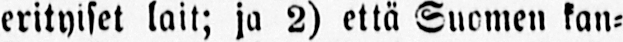erityiset lait; ja 2) että Suomen kan-
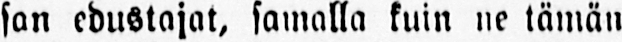san edustajat, samalla kuin ne tämän
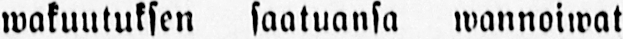wakuutuksen saatuansa wannoiwat
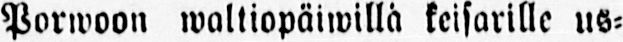Porwoon waltiopäiwillä keisarille us-
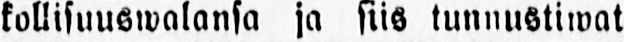kollisuuswalansa ja siis tunnustiwat
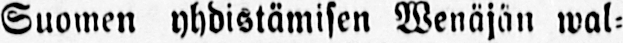Suomen yhdistämisen Wenäjän wal-
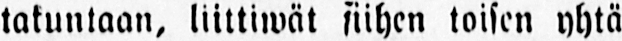tatuntaan, liittiwät siihen loisen yhtä
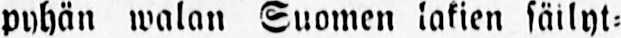pyhän walan Suomen lakien säilyt-
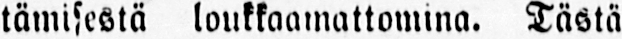tämisestä loukkaamattomina. Tästä
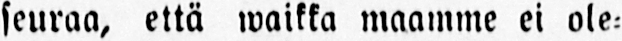seuraa, että waikka maamme ei ole-
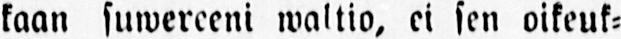kaan suwereeni waltio, ei sen oikeuk-
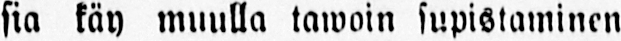sia käy muulla tawoin supistaminen
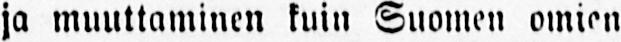ja muuttaminen kuin Suomen omien
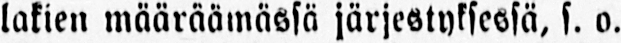lakien määräämässä järjestyksessä, s. o.
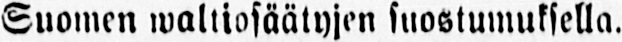Suomen waltiosäätyjen suostumuksella.
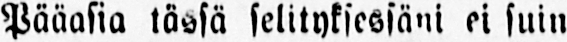Pääasia tässä selityksessäni ei suin
